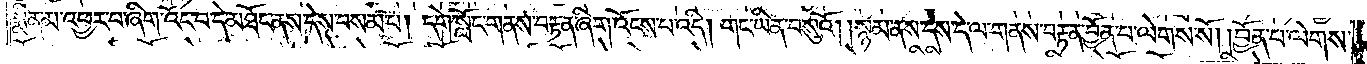སྨིན་མ་འཕྱར་བ་ཞིག་འོང་བ་དེ་མཐོང་ནས་དེས་བསམ་པ། དགེ་སློང་གནས་བརྟན་ཞིག་འོངས་པ་འདི། གང་ཡིན་པ་བསུའོ། །སྙམ་ནས་དེས་དེ་ལ་གནས་བརྟན་བྱོན་པ་ལེགས་སོ། བྱོན་པ་ལེགས་
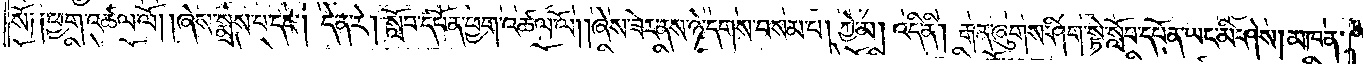སོ༑ ༑ཕྱག་འཚལ་ལོ། །ཞེས་སྨྲས་པ་དང༌། དེ་ན་རེ། སློབ་དཔོན་ཕྱག་འཚལ་ལོ། །ཞེས་ཟེར་ནས་ཉེ་དགས་བསམ་པ། ཀྱེ་མ། འདི་ནི། རྒན་ཞུགས་ཤིག་སྟེ་སློབ་དཔོན་ཡང་མི་ཤེས། མཁན་
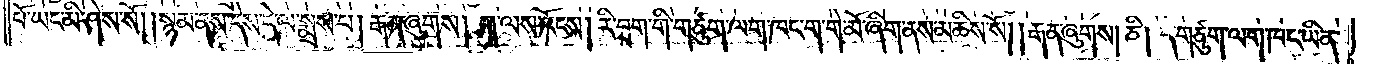པོ་ཡང་མི་ཤེས་སོ། །སྙམ་ནས་དེས་དེ་ལ་སྨྲས་པ། རྒན་ཞུགས། ག་ལས་འོངས། རི་བྲག་གི་གཙུག་ལག་ཁང་ག་གེ་མོ་ཞིག་ནས་མཆིས་སོ། །རྒན་ཞུགས། ཅི། དེ་གཙུག་ལག་ཁང་ཡིན་
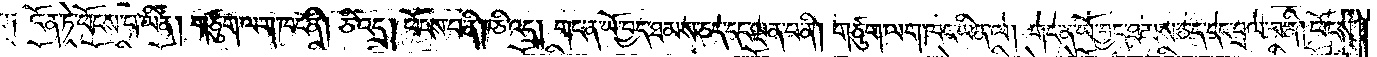ནམ༑ འོན་ཏེ་ཕོངས་པ་ཡིན། གཙུག་ལག་ཁང་ནི། ཅི་འདྲ། ཕོང་པ་ནི། ཅི་འདྲ། གང་ན་ཡོ་བྱད་ཐམས་ཅད་དང་ལྡན་པ་ནི། གཙུག་ལག་ཁང་ཡིན་ལ། གང་ན་ཡོ་བྱད་ཐམས་ཅད་དང་བྲལ་བ་ནི། ཕོངས་
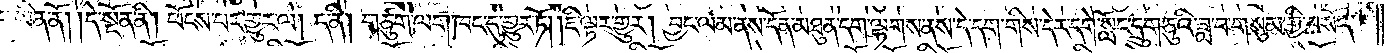པ་ཡིན་ནོ། །དེ་སྔོན་ནི། ཕོངས་པར་གྱུར་ལ། ད་ནི། གཙུག་ལག་ཁང་དུ་གྱུར་ཏོ། །ཇི་ལྟར་གྱུར། བྱང་ལམ་ནས་དོན་མཐུན་དག་ལྷགས་ནས་དེ་དག་གིས་དེར་དགེ་སློང་དྲུག་ཅུའི་ཟླ་བ་གསུམ་གྱི་བསོད་
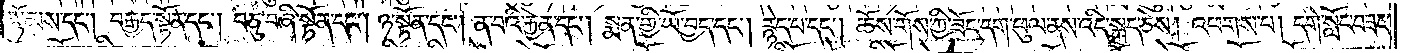སྙོམས་དང༌། བརྒྱད་སྟོན་དང༌། བཅུ་བཞི་སྟོན་དང༌། ཉ་སྟོན་དང༌། ན་བའི་རྐྱེན་དང༌། སྨན་གྱི་ཡོ་བྱད་དང༌། རྙེད་པ་དང༌། ཆོས་གོས་ཀྱི་ཟོར་དག་ཕུལ་ནས་འདི་སྐད་ཅེས། འཕགས་པ། དགེ་སློང་བཟང་
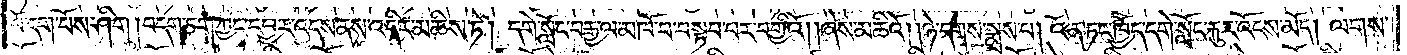པོ་དག་པོས་ཤིག། བདག་ཅག་ཀྱང་དབྱར་འདས་ནས་འདིར་མཆིས་ཏེ། དགེ་སློང་བརྒྱ་ལ་མཁོ་བ་བསྟབ་པར་བགྱིའོ། །ཞེས་མཆིའོ། །ཉེ་དགས་སྨྲས་པ། འོན་ཏང་ཁྱོད་དགེ་སློང་རྐུར་འོངས་མོད། ལགས་
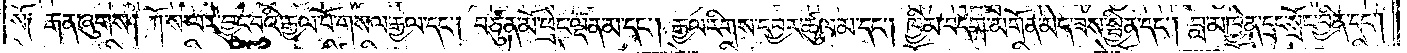སོ༑ རྒན་ཞུགས། ཀོ་ས་ལར་བྱུང་བའི་རྒྱལ་པོ་གསལ་རྒྱལ་དང༌། བཙུན་མོ་ཕྲེང་ལྡན་མ་དང༌། རྒྱལ་རིགས་དབྱར་ཚུལ་མ་དང༌། ཁྱིམ་བདག་མགོན་མེད་ཟས་སྦྱིན་དང༌། བླ་མཁྱེན་དྲང་སྲོང་བྱིན་དང༌།
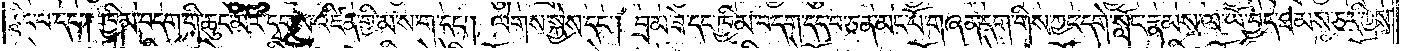རྙིང་པ་དང༌། ཁྱིམ་བདག་གི་ཆུང་མ་རི་དྭགས་འཛིན་གྱི་མ་ས་ག་དང༌། ལེགས་སྐྱེས་དང༌། བྲམ་ཟེ་དང་ཁྱིམ་བདག་དད་པ་ཅན་མང་པོ་གཞན་དག་གིས་ཀྱང་དགེ་སློང་རྣམས་ལ་ཡོ་བྱད་ཐམས་ཅད་ཀྱིས་
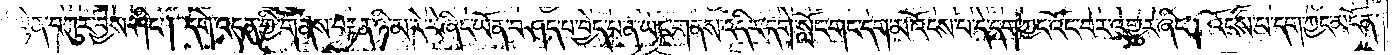བསྙེན་བཀུར་བྱས་ཤིང༌། དགེ་འདུན་གྱི་གནས་བརྟན་ཉི་མ་རེ་རེ་ཞིང་ཡོན་བཤད་པ་བྱེད་པ་ན་ཡང་གནས་འདིར་དགེ་སློང་གང་དག་མ་འོངས་པ་དེ་དག་ཀྱང་འོང་བར་འགྱུར་ཞིང༌། འོངས་པ་དག་ཀྱང་མངོན་
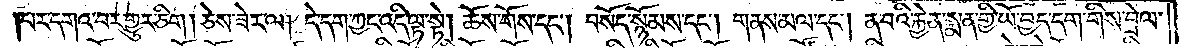པར་དགའ་བར་གྱུར་ཅིག །ཅེས་ཟེར་ལ། དེ་དག་ཀྱང་འདི་ལྟ་སྟེ། ཆོས་གོས་དང༌། བསོད་སྙོམས་དང༌། གནས་མལ་དང༌། ན་བའི་རྐྱེན་སྨན་གྱི་ཡོ་བྱད་དག་གིས་བྲེལ་
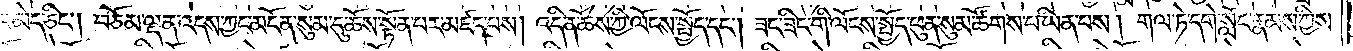བ་མེད་ཅིང༌། བཅོམ་ལྡན་འདས་ཀྱང་མངོན་སུམ་དུ་ཆོས་སྟོན་པར་མཛད་པས། འདི་ན་ཆོས་ཀྱི་ལོངས་སྤྱོད་དང༌། ཟང་ཟིང་གི་ལོངས་སྤྱོད་ཕུན་སུམ་ཚོགས་པ་ཡིན་པས། གལ་ཏེ་དགེ་སློང་རྣམས་ཀྱིས་
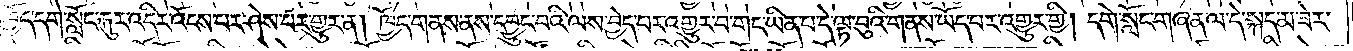ཁྱོད་དགེ་སློང་རྐུར་འདིར་འོངས་པར་ཤེས་པར་གྱུར་ན། ཁྱོད་གནས་ནས་དབྱུང་བའི་ལས་བྱེད་པར་འགྱུར་བ་གང་ཡིན་པ་དེ་ལྟ་བུའི་གནས་ཡོད་པར་འགྱུར་གྱི། དགེ་སློང་གཞན་ལ་དེ་སྐད་མ་ཟེར་
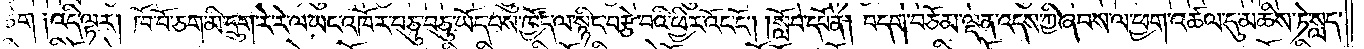ཅིག ༑འདི་ལྟར། ཁོ་བོ་ཅག་མི་དྲུག་རེ་རེ་ལ་ཡང་འཁོར་བཅུ་བཅུ་ཡོད་པས་ཁྱོད་ལ་སྙིང་བརྩེ་བའི་ཕྱིར་འོང་ངོ༌། །སློབ་དཔོན། བདག་བཅོམ་ལྡན་འདས་ཀྱི་ཞབས་ལ་ཕྱག་འཚལ་དུ་མཆིས་ཏེ་སླད་
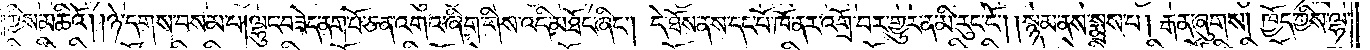ཀྱིས་མཆིའོ། །ཉེ་དགས་བསམ་པ། ལྷུང་བཟེད་ནག་པོ་ཅན་འགའ་ཞིག་གིས་འདི་མཐོང་ཞིང༌། དེ་ཐོས་ནས་དང་པོ་ཁོ་ནར་འགྲོ་བར་གྱུར་ན་མི་རུང་ངོ༌། །སྙམ་ནས་སྨྲས་པ། རྒན་ཞུགས། ཁྱོད་ཀྱིས་ལྷ་
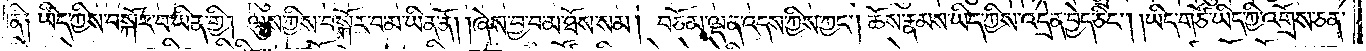ནི། ཡིད་ཀྱིས་བསྐོར་བ་ཡིན་གྱི། ལུས་ཀྱིས་བསྐོར་བ་མ་ཡིན་ནོ། །ཞེས་བྱ་བ་མ་ཐོས་སམ། བཅོམ་ལྡན་འདས་ཀྱིས་ཀྱང༌། ཆོས་རྣམས་ཡིད་ཀྱིས་འདྲེན་བྱེད་ཅིང༌། །ཡིད་གཙོ་ཡིད་ཀྱི་འགྲོས་ཅན་
